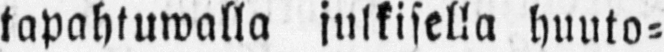tapahtuwalla julkisella huuto-
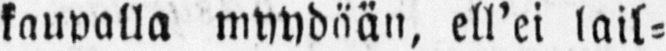kaupalla myydään, ell'ei lail-
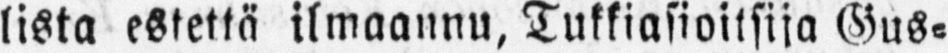lista estettä ilmaannu, Tukkiasioitsija Gus-
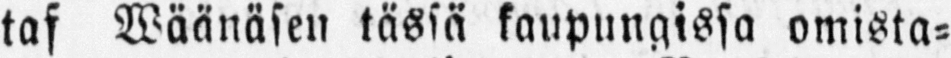taf Wäänäsen tässä kaupungissa omista-
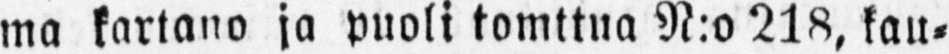ma kartano ja puoli tomttua N:o 218, kau-
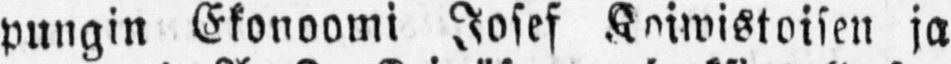pungin Ekonoomi Josef Koiwistoisen ja
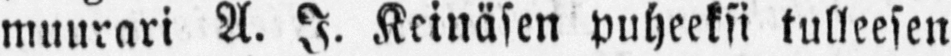muurari A. J. Keinäsen puheeksi tulleesen
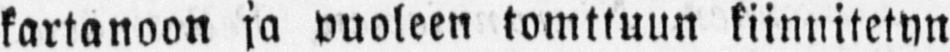kartanoon ja vuoteen toruttuun kiinnitetyn
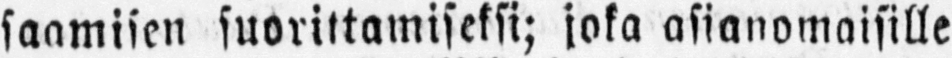saamisen suorittamiseksi; joka asianomaisille
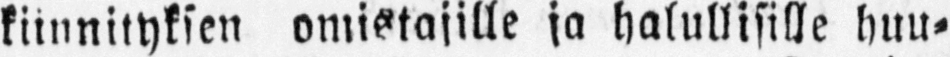kiinnityksen omistajille ja halullisille huu-
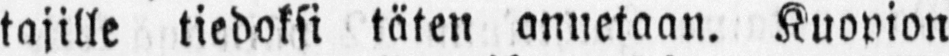tajille tiedoksi täten annetaan. Kuopion
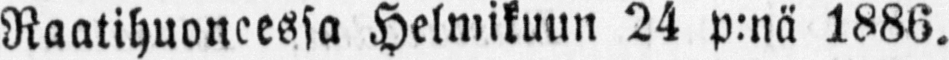Raatihuoneessa Helmikuun 24 p:nä 1886.
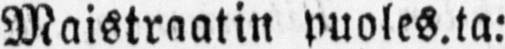Maistraatin puoles.ta:
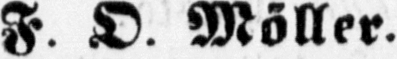F. O. Möller.
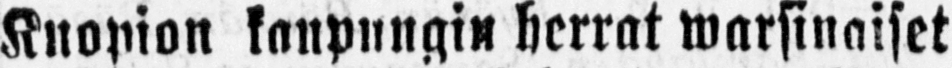Kuopion kanpungin herrat warsinaiset
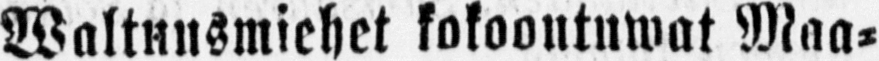Waltuusmiehet kokoontuwat Maa-
